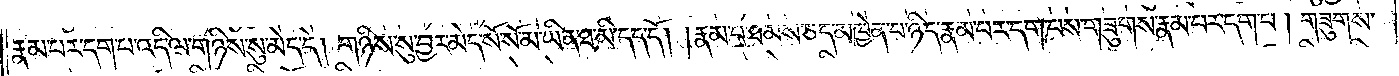རྣམ་པར་དག་པ་འདི་ལ་གཉིས་སུ་མེད་དེ། གཉིས་སུ་བྱར་མེད་སོ་སོ་མ་ཡིན་ཐ་མི་དད་དོ། །རྣམ་པ་ཐམས་ཅད་མཁྱེན་པ་ཉིད་རྣམ་པར་དག་པས་གཟུགས་རྣམ་པར་དག་པ། གཟུགས་
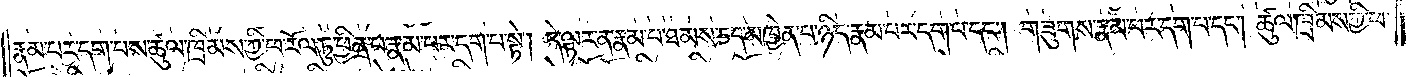རྣམ་པར་དག་པས་ཚུལ་ཁྲིམས་ཀྱི་ཕ་རོལ་ཏུ་ཕྱིན་པ་རྣམ་པར་དག་པ་སྟེ། དེ་ལྟར་ན་རྣམ་པ་ཐམས་ཅད་མཁྱེན་པ་ཉིད་རྣམ་པར་དག་པ་དང༌། གཟུགས་རྣམ་པར་དག་པ་དང༌། ཚུལ་ཁྲིམས་ཀྱི་ཕ་
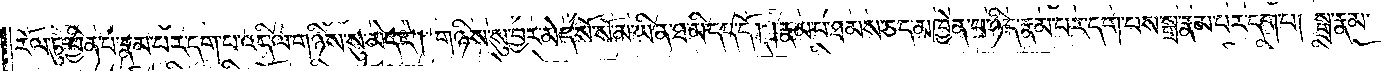རོལ་ཏུ་ཕྱིན་པ་རྣམ་པར་དག་པ་འདི་ལ་གཉིས་སུ་མེད་དེ། གཉིས་སུ་བྱར་མེད་སོ་སོ་མ་ཡིན་ཐ་མི་དད་དོ། །རྣམ་པ་ཐམས་ཅད་མཁྱེན་པ་ཉིད་རྣམ་པར་དག་པས་སྒྲ་རྣམ་པར་དག་པ། སྒྲ་རྣམ་
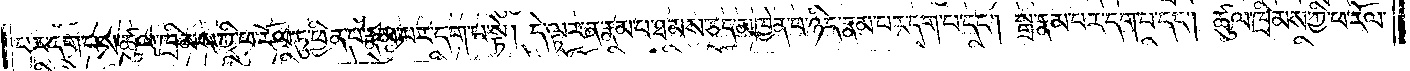པར་དག་པས་ཚུལ་ཁྲིམས་ཀྱི་ཕ་རོལ་ཏུ་ཕྱིན་པ་རྣམ་པར་དག་པ་སྟེ། དེ་ལྟར་ན་རྣམ་པ་ཐམས་ཅད་མཁྱེན་པ་ཉིད་རྣམ་པར་དག་པ་དང༌། སྒྲ་རྣམ་པར་དག་པ་དང༌། ཚུལ་ཁྲིམས་ཀྱི་ཕ་རོལ་
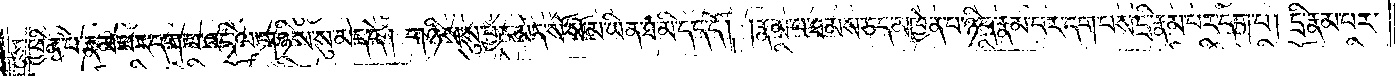ཏུ་ཕྱིན་པ་རྣམ་པར་དག་པ་འདི་ལ་གཉིས་སུ་མེད་དེ། གཉིས་སུ་བྱར་མེད་སོ་སོ་མ་ཡིན་ཐ་མི་དད་དོ། །རྣམ་པ་ཐམས་ཅད་མཁྱེན་པ་ཉིད་རྣམ་པར་དག་པས་དྲི་རྣམ་པར་དག་པ། དྲི་རྣམ་པར་
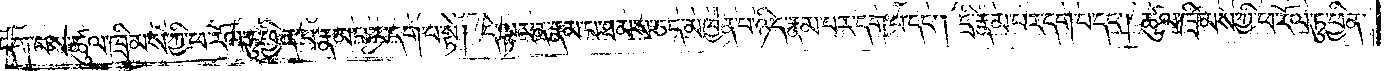དག་པས་ཚུལ་ཁྲིམས་ཀྱི་ཕ་རོལ་ཏུ་ཕྱིན་པ་རྣམ་པར་དག་པ་སྟེ། དེ་ལྟར་ན་རྣམ་པ་ཐམས་ཅད་མཁྱེན་པ་ཉིད་རྣམ་པར་དག་པ་དང༌། དྲི་རྣམ་པར་དག་པ་དང༌། ཚུལ་ཁྲིམས་ཀྱི་ཕ་རོལ་ཏུ་ཕྱིན་
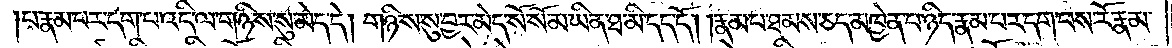པ་རྣམ་པར་དག་པ་འདི་ལ་གཉིས་སུ་མེད་དེ། གཉིས་སུ་བྱར་མེད་སོ་སོ་མ་ཡིན་ཐ་མི་དད་དོ། །རྣམ་པ་ཐམས་ཅད་མཁྱེན་པ་ཉིད་རྣམ་པར་དག་པས་རོ་རྣམ་
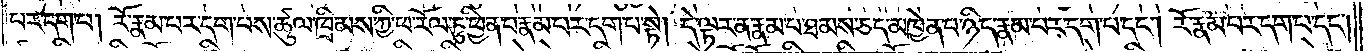པར་དག་པ། རོ་རྣམ་པར་དག་པས་ཚུལ་ཁྲིམས་ཀྱི་ཕ་རོལ་ཏུ་ཕྱིན་པ་རྣམ་པར་དག་པ་སྟེ། དེ་ལྟར་ན་རྣམ་པ་ཐམས་ཅད་མཁྱེན་པ་ཉིད་རྣམ་པར་དག་པ་དང༌། རོ་རྣམ་པར་དག་པ་དང༌།
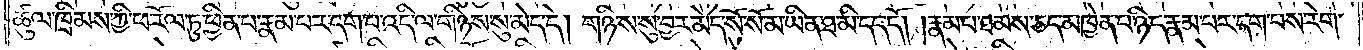ཚུལ་ཁྲིམས་ཀྱི་ཕ་རོལ་ཏུ་ཕྱིན་པ་རྣམ་པར་དག་པ་འདི་ལ་གཉིས་སུ་མེད་དེ། གཉིས་སུ་བྱར་མེད་སོ་སོ་མ་ཡིན་ཐ་མི་དད་དོ། །རྣམ་པ་ཐམས་ཅད་མཁྱེན་པ་ཉིད་རྣམ་པར་དག་པས་རེག་
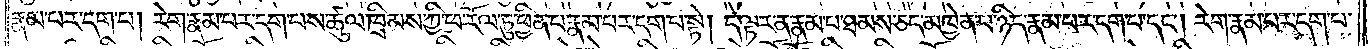རྣམ་པར་དག་པ། རེག་རྣམ་པར་དག་པས་ཚུལ་ཁྲིམས་ཀྱི་ཕ་རོལ་ཏུ་ཕྱིན་པ་རྣམ་པར་དག་པ་སྟེ། དེ་ལྟར་ན་རྣམ་པ་ཐམས་ཅད་མཁྱེན་པ་ཉིད་རྣམ་པར་དག་པ་དང༌། རེག་རྣམ་པར་དག་པ་
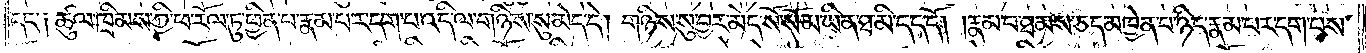དང་༑ ཚུལ་ཁྲིམས་ཀྱི་ཕ་རོལ་ཏུ་ཕྱིན་པ་རྣམ་པར་དག་པ་འདི་ལ་གཉིས་སུ་མེད་དེ། གཉིས་སུ་བྱར་མེད་སོ་སོ་མ་ཡིན་ཐ་མི་དད་དོ། །རྣམ་པ་ཐམས་ཅད་མཁྱེན་པ་ཉིད་རྣམ་པར་དག་པས་
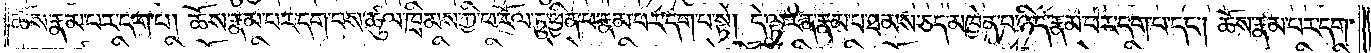ཆོས་རྣམ་པར་དག་པ། ཆོས་རྣམ་པར་དག་པས་ཚུལ་ཁྲིམས་ཀྱི་ཕ་རོལ་ཏུ་ཕྱིན་པར་རྣམ་པར་དག་པ་སྟེ། དེ་ལྟར་ན་རྣམ་པ་ཐམས་ཅད་མཁྱེན་པ་ཉིད་རྣམ་པར་དག་པ་དང༌། ཆོས་རྣམ་པར་དག་
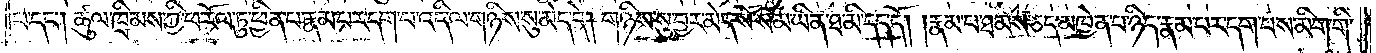པ་དང༌། ཚུལ་ཁྲིམས་ཀྱི་ཕ་རོལ་ཏུ་ཕྱིན་པ་རྣམ་པར་དག་པ་འདི་ལ་གཉིས་སུ་མེད་དེ། གཉིས་སུ་བྱར་མེད་སོ་སོ་མ་ཡིན་ཐ་མི་དད་དོ། །རྣམ་པ་ཐམས་ཅད་མཁྱེན་པ་ཉིད་རྣམ་པར་དག་པས་མིག་གི་
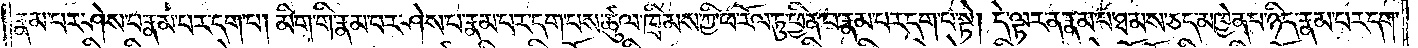རྣམ་པར་ཤེས་པ་རྣམ་པར་དག་པ། མིག་གི་རྣམ་པར་ཤེས་པ་རྣམ་པར་དག་པས་ཚུལ་ཁྲིམས་ཀྱི་ཕ་རོལ་ཏུ་ཕྱིན་པ་རྣམ་པར་དག་པ་སྟེ། དེ་ལྟར་ན་རྣམ་པ་ཐམས་ཅད་མཁྱེན་པ་ཉིད་རྣམ་པར་དག་
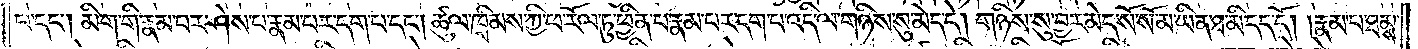པ་དང༌། མིག་གི་རྣམ་པར་ཤེས་པ་རྣམ་པར་དག་པ་དང༌། ཚུལ་ཁྲིམས་ཀྱི་ཕ་རོལ་ཏུ་ཕྱིན་པ་རྣམ་པར་དག་པ་འདི་ལ་གཉིས་སུ་མེད་དེ། གཉིས་སུ་བྱར་མེད་སོ་སོ་མ་ཡིན་ཐ་མི་དད་དོ། །རྣམ་པ་ཐམས་
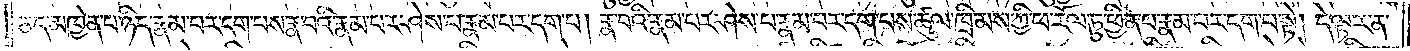ཅད་མཁྱེན་པ་ཉིད་རྣམ་པར་དག་པས་རྣ་བའི་རྣམ་པར་ཤེས་པ་རྣམ་པར་དག་པ། རྣ་བའི་རྣམ་པར་ཤེས་པ་རྣམ་པར་དག་པས་ཚུལ་ཁྲིམས་ཀྱི་ཕ་རོལ་ཏུ་ཕྱིན་པ་རྣམ་པར་དག་པ་སྟེ། དེ་ལྟར་ན་
